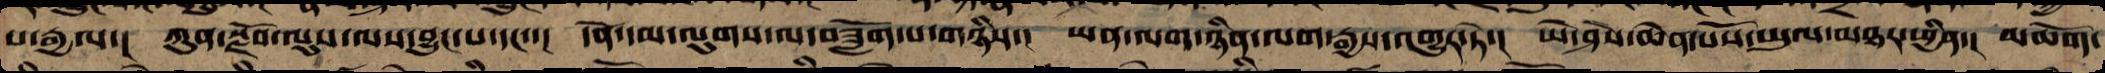པ་རྒྱལ་། ཀུན་སྫོབ་ལུགས་ལས་འབྱུང་བ་དང་་། དོན་དམ་ལུགས་ལས་བཟློག་པ་གཉིས་། ཡན་ལག་ཉིན་ལག་རྒྱས་འགྱུར་ཏེ་། ཡེ་ཤེས་ཆེན་པོའི་ཡུལ་མཐར་ཕྱིན་། མཆོག་
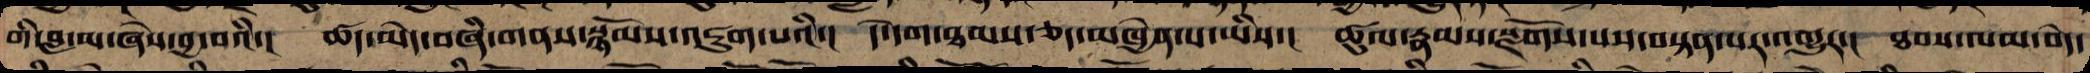གི་བླ་མ་ཞེས་བྱ་བའི་། ཚད་མེད་བཞི་གནས་སྙོམས་འཇུག་པའི་། དེ་དག་ཐམས་ཅད་མཁྱེན་པ་ཡིས་། ཚུལ་རྣམས་སྫོགས་པས་བསྟན་པར་འགྱུར་། ཐབས་ལམ་བདེ་
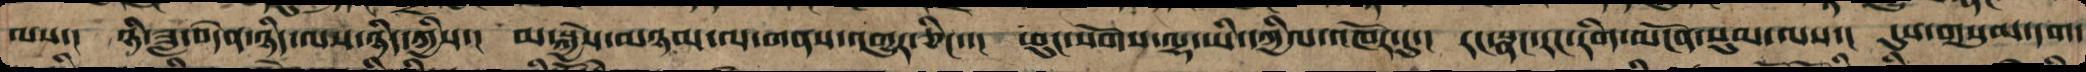ལས་། ཉི་ཟླ་བདེན་ཉིད་ལས་ཉིད་ཀྱིས་། མ་སྐྱེས་མཉམ་ལ་གནས་གྱུར་ཅིང་་། ཕུང་སོགས་ལྷ་ཡི་དཀྱིལ་འཁོར་དུ་། རང་སྣང་རང་རིག་མངོན་སུམ་གསལ་། དུས་གསུམ་དག་
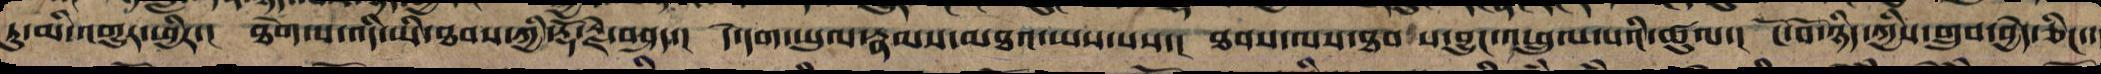ཏུ་མི་འགྱུར་ཕྱིར་། ཐེག་པ་འདི་ཡི་ཐབས་ཀྱི་རྡོ་རྗེ་བཤད་། དེ་དག་ཡུལ་རྣམས་མཐའ་ཡས་པས་། ཐབས་ལས་ཐབས་བྱུང་འཕྲུལ་པའི་ཚུལ་། ངོ་བོ་ཉིད་ཀྱིས་གྲུབ་བྱེད་ཅིང་།
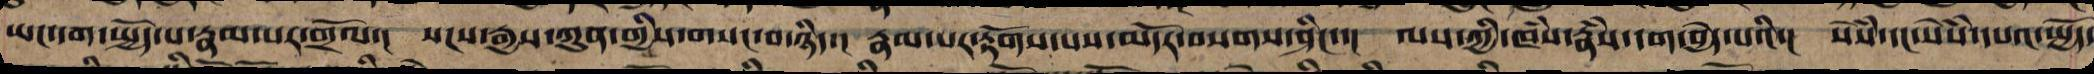ཡང་དག་སྤྱོད་པ་རྣམ་པར་གྲོལ་། སངས་རྒྱས་ཀུན་གྱི་གསང་བ་ཉིད་། རྣམ་པར་རྟོག་པས་མདོར་བསགས་ཤིང་་། ལས་ཀྱི་ཁཾས་རྣཾས་དག་བྱེད་པའི་། སེཾས་དང་སེཾས་དཔའ་སྤྱོད་
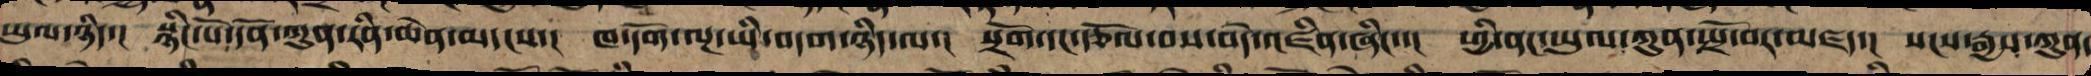ཡུལ་ཉིད་། སྙིང་པོ་དོན་ཀུན་རིན་ཆེན་མདངས་། ཁ་དོག་ལྔ་ཡི་བདག་ཉིད་ལ་། སྲོག་དང་རྩོལ་བས་བདེ་འཛིན་ཞིང་་། ཕྱི་ནང་ཡུལ་ཀུན་སྤྲོ་བར་མཛད་། སངས་རྒྱས་ཀུན་
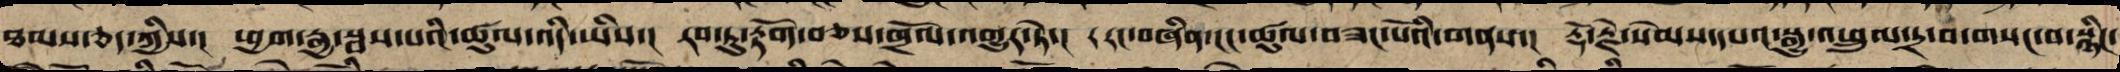ཐམས་ཅད་ཀྱི་། ཕྱག་རྒྱ་སྦས་པའི་ཚུལ་འདི་ཡིས་། རབ་ཏུ་རྟོག་བཅས་གྲོལ་འགྱུར་ཏེ་། རང་བཞིན་ངང་ཚུལ་བཟང་པོའི་གནས་། རྡོ་རྗེ་སེམས་དཔའ་སྒྱུ་འཕྲུལ་དྲ་བ་གསང་བ་སྙིང་
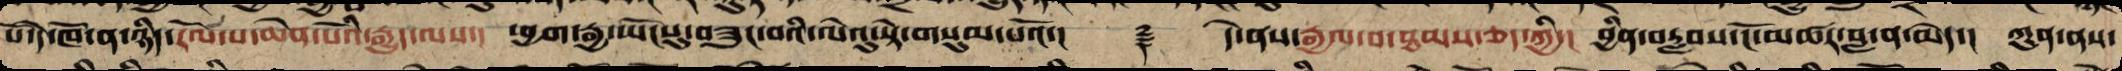པོ་དེ་ཁོ་ན་ཉིད་རོལ་པ་ཆེན་པོའི་རྒྱུད་ལས་། ཕྱག་རྒྱ་ཡོངསུ་གཟུང་བའི་ལེའུ་སྟེ་གསུམ་པའོ་།། ༈ དེ་ནས་རྒྱལ་བ་ཐམས་ཅད་ཀྱི་། བྱིན་རླབས་ངོ་མཚར་བླ་ན་མེད་། ཀུན་ནས་
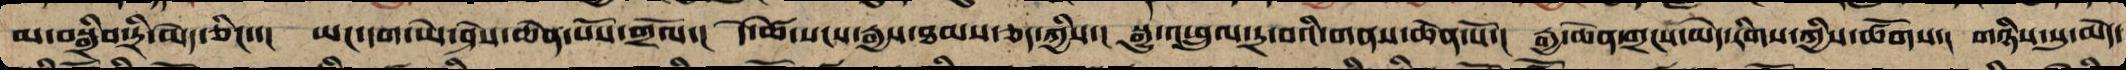མི་བསྒྲིབ་དྲི་མེད་ཅིང་་། ཡང་དག་ཡེ་ཤེས་ཆེན་པོས་གྲོལ་། དེ་ཚེ་སངས་རྒྱས་ཐམས་ཅད་ཀྱིས་། སྒྱུ་འཕྲུལ་དྲ་བའི་གནས་ཆེན་པོ་། རྒྱ་ཆེན་གྲངས་མེད་རིགས་ཀྱི་གཙོ་། གཉིས་སུ་མེད་
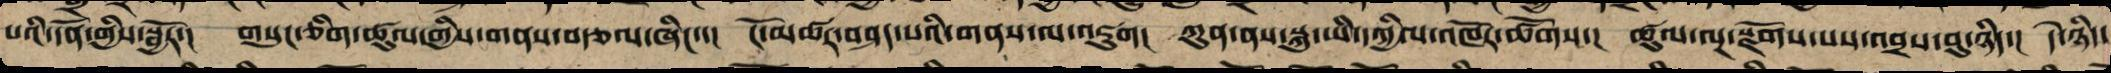པའི་དོན་གྱིས་སྦྱོར་། གསུང་གཅིག་ཚུལ་གྱིས་དོན་སྩལ་ཅིང་་། ངོ་མཚར་བཤད་པའི་གནས་ལ་འཇུག། ཀུན་ནས་སྐུ་ཡི་དཀྱིལ་འཁོར་ཚོགས་། ཚུལ་ལྔ་སྫོགས་པས་འབྲས་བུ་ཉིད་། དེ་ཉིད་
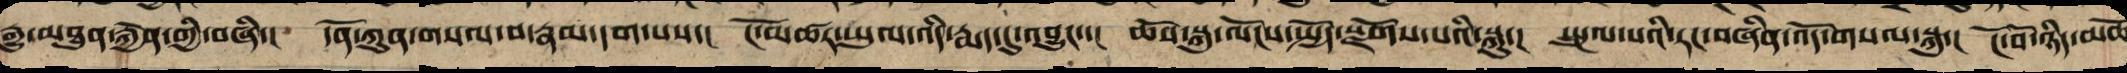རྒྱུ་མཐུན་རྐྱེན་གྱི་བཞི་། དོན་ཀུན་གསལ་བ་རྣམ་དག་པས་། ངོ་མཚར་ཡུལ་འདི་རྨད་དུ་་བྱུང་་། ཆོསྐུ་ལོངས་སྤྱོད་སྫོགས་པའི་སྐུ་། སྤྲུལ་པ་རང་བཞིན་འོད་གསལ་སྐུ་། ངོ་བོ་ཉིད་མཆོ
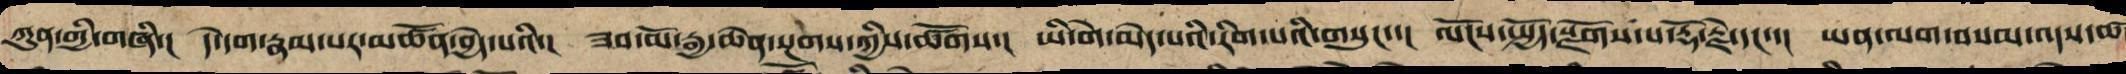ཀུན་གྱི་གཞི་། དེ་དག་རྣམ་པར་མཚོན་བྱེད་པའི་། ཟབ་མོ་རྒྱ་ཆེན་སྔགས་ཀྱི་ཚོགས་། ཡི་གེ་མེད་པ་རིག་པའི་གསུང་་། ལོངས་སྤྱོད་སྫོགས་པ་རྡོ་རྗེ་དང་་། ཡན་ལག་བསམ་འདས་ཚ
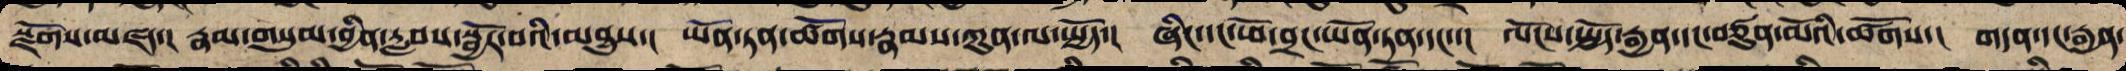སྫོགས་མཛད་། རྣམ་གསུམ་བྱིན་རླབས་སྦྱོར་བའི་མཐུས་། ཡོན་ཏན་ཚོགས་རྣམས་ཀུན་ལ་སྤྱོད་། ཞིང་དང་ཕོ་བྲང་ཡོན་ཏན་དང་་། ལོངས་སྤྱོད་རྒྱན་དང་བཙུན་མོའི་ཚོགས་། གདན་དང་རྒྱན་
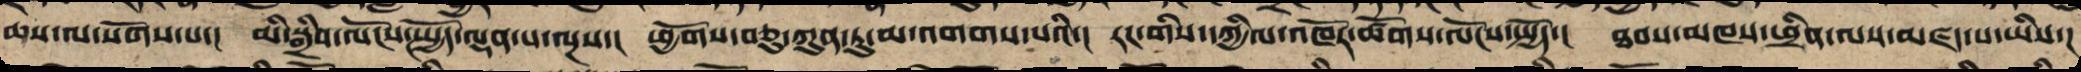ཆས་ལ་སོགས་པ་། མི་བསྒྲིབ་ལོངས་སྤྱོད་ལྡན་པ་ལྔས་། ཕྱོགས་བཅུ་ཀུན་ཏུ་མ་འགགས་པའི་། རང་གི་དཀྱིལ་འཁོར་ཚོགས་ལོངས་སྤྱོད་། ཐབས་མཁས་ཕྲིན་ལས་མཛད་པ་ཡི་།
